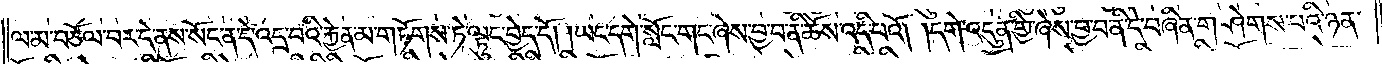ལ་མ་བཅོལ་བར་དེ་ནས་སོང་ན་དེ་འདྲ་བའི་རྐྱེན་མ་གཏོགས་ཏེ་ལྟུང་བྱེད་དོ། །ཡང་དགེ་སློང་གང་ཞེས་བྱ་བ་ནི་ཆོས་འདི་པའོ། །དགེ་འདུན་གྱི་ཞེས་བྱ་བ་ནི་དེ་བཞིན་གཤེགས་པའི་ཉན་
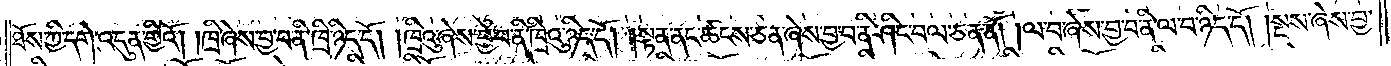ཐོས་ཀྱི་དགེ་འདུན་གྱིའོ། །ཁྲི་ཞེས་བྱ་བ་ནི་ཁྲི་ཉིད་དོ། །ཁྲིའུ་ཞེས་བྱ་བ་ནི་ཁྲིའུ་ཉིད་དོ། །སྟན་ནང་ཚངས་ཅན་ཞེས་བྱ་བ་ནི་ཤིང་བལ་ཅན་ནོ། །ལ་བ་ཞེས་བྱ་བ་ནི་ལ་བ་ཉིད་དོ། །སྔས་ཞེས་བྱ་
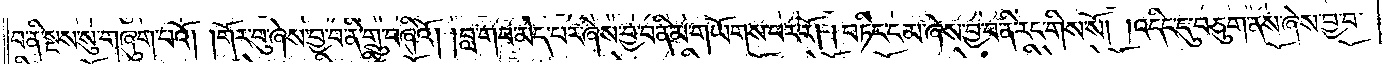བ་ནི་སྔས་སུ་གཞུག་པའོ། །གོར་བུ་ཞེས་བྱ་བ་ནི་གྲུ་བཞིའོ། །བླ་གབ་མེད་པར་ཞེས་བྱ་བ་ནི་མ་གཡོགས་པར་རོ། །བཏིང་ངམ་ཞེས་བྱ་བ་ནི་རང་གིས་སོ། །འདིང་དུ་བཅུག་ནས་ཞེས་བྱ་བ་
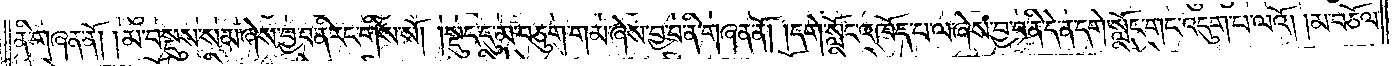ནི་གཞན་ནོ། །མ་བསྡུས་སམ་ཞེས་བྱ་བ་ནི་རང་གིས་སོ། །སྡུད་དུ་མ་བཅུག་གམ་ཞེས་བྱ་བ་ནི་གཞན་ནོ། །དགེ་སློང་འཁོད་པ་ལ་ཞེས་བྱ་བ་ནི་དེ་ན་དགེ་སློང་གང་འདུག་པ་ལའོ། །མ་བཅོལ་
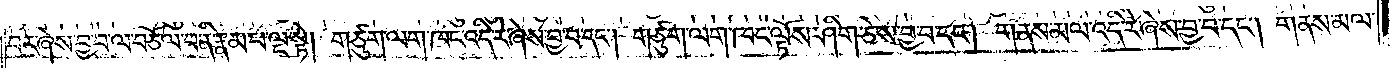བར་ཞེས་བྱ་བ་ལ་བཅོལ་བ་ནི་རྣམ་པ་ལྔ་སྟེ། གཙུག་ལག་ཁང་འདི་རེ་ཞེས་བྱ་བ་དང༌། གཙུག་ལག་ཁང་ལྟོས་ཤིག་ཅེས་བྱ་བ་དང༌། གནས་མལ་འདི་རེ་ཞེས་བྱ་བ་དང༌། གནས་མལ་
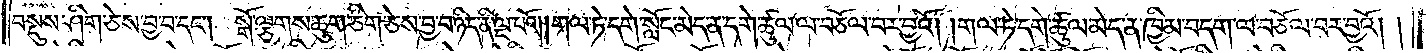བསྡུས་ཤིག་ཅེས་བྱ་བ་དང༌། སྒོ་ལྕགས་ཆུག་ཅིག་ཅེས་བྱ་བ་ཉིད་ནི་ལྔ་པའོ། །གལ་ཏེ་དགེ་སློང་མེད་ན་དགེ་ཚུལ་ལ་བཅོལ་བར་བྱའོ། །གལ་ཏེ་དགེ་ཚུལ་མེད་ན་ཁྱིམ་བདག་ལ་བཅོལ་བར་བྱའོ། །
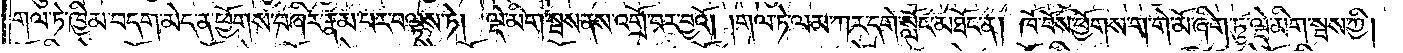གལ་ཏེ་ཁྱིམ་བདག་མེད་ན་ཕྱོགས་བཞིར་རྣམ་པར་བལྟས་ཏེ། ལྡེ་མིག་སྦས་ནས་འགྲོ་བར་བྱའོ། །གལ་ཏེ་ལམ་ཀར་དགེ་སློང་མཐོང་ན། ཁོ་བོས་ཕྱོགས་ག་གེ་མོ་ཞིག་ཏུ་ལྡེ་མིག་སྦས་ཀྱི།
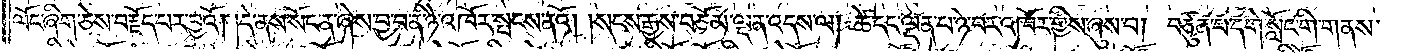ལོང་ཞིག་ཅེས་བརྗོད་པར་བྱའོ། །དེ་ནས་སོང་ན་ཞེས་བྱ་བ་ནི་ཉེ་འཁོར་སྤངས་ནའོ། །སངས་རྒྱས་བཅོམ་ལྡན་འདས་ལ། ཚེ་དང་ལྡན་པ་ཉེ་བར་འཁོར་གྱིས་ཞུས་པ། བཙུན་པ་དགེ་སློང་གི་གནས་
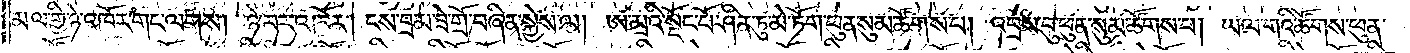མལ་གྱི་ཉེ་འཁོར་གང་ལགས། ཉེ་བར་འཁོར། ངས་བྲམ་ཟེ་གྲོ་བཞིན་སྐྱེས་ལ། ཨ་མྲའི་སྡོང་པོ་ཤིན་ཏུ་མེ་ཏོག་ཕུན་སུམ་ཚོགས་པ། འབྲས་བུ་ཕུན་སུམ་ཚོགས་པ། ཡལ་གའི་ཚོགས་ཕུན་
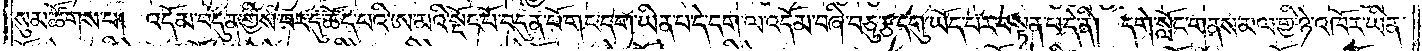སུམ་ཚོགས་པ། འདོམ་བདུན་གྱིས་བར་དུ་ཆོད་པའི་ཨ་མའི་སྡོང་པོ་གང་དག་ཡིན་པ་དེ་དག་ལ་འདོམ་བཞི་བཅུ་རྩ་དགུ་ཡོད་པར་བསྟན་པ་དེ་ནི། དགེ་སློང་གནས་མལ་གྱི་ཉེ་འཁོར་ཡིན་
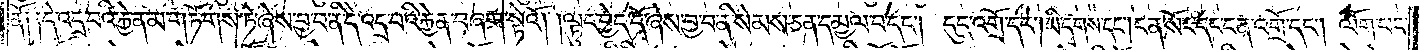ནོ༑ ༑དེ་འདྲ་བའི་རྐྱེན་མ་གཏོགས་ཏེ་ཞེས་བྱ་བ་ནི་དེ་འདྲ་བའི་རྐྱེན་བཞག་སྟེའོ། །ལྟུང་བྱེད་དོ་ཞེས་བྱ་བ་ནི་སེམས་ཅན་དམྱལ་བ་དང༌། དུད་འགྲོ་དང༌། ཡི་དྭགས་དང༌། ངན་སོང་དང་ངན་འགྲོ་དང༌། ལོག་པར་
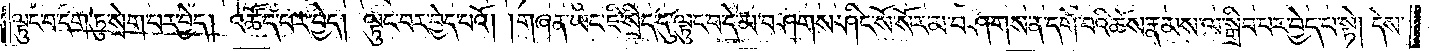ལྟུང་བ་དག་ཏུ་སྲེག་པར་བྱེད། འཚོད་པར་བྱེད། ལྟུང་བར་བྱེད་པའོ། །གཞན་ཡང་ཇི་སྲིད་དུ་ལྟུང་བ་དེ་མ་བཤགས་ཤིང་སོ་སོར་མ་བཤགས་ན་དགེ་བའི་ཆོས་རྣམས་ལ་སྒྲིབ་པ་སྟེ། དེས་
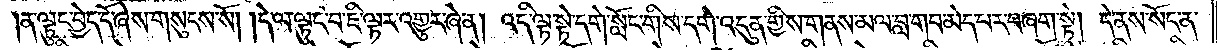།ན་ལྟུང་བྱེད་དོ་ཞེས་གསུངས་སོ། །དེ་ལ་ལྟུང་བ་ཇི་ལྟར་འགྱུར་ཞེ་ན། འདི་ལྟ་སྟེ་དགེ་སློང་གིས་དགེ་འདུན་གྱིས་གནས་མལ་བླ་གབ་མེད་པར་བཞག་སྟེ། དེ་ནས་སོང་ན་
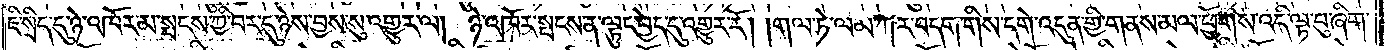ཇི་སྲིད་དུ་ཉེ་འཁོར་མ་སྤངས་ཀྱི་བར་དུ་ཉེས་བྱས་སུ་འགྱུར་ལ། ཉེ་འཁོར་སྤངས་ན་ལྟུང་བྱེད་དུ་འགྱུར་རོ། །གལ་ཏེ་ལམ་ཀར་བདག་གིས་དགེ་འདུན་གྱི་གནས་མལ་ཕྱོགས་འདི་ལྟ་བུ་ཞིག་
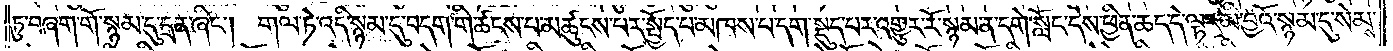ཏུ་བཞག་གོ་སྙམ་དུ་དྲན་ཞིང༌། གལ་ཏེ་འདི་སྙམ་དུ་བདག་གི་ཚངས་པ་མཚུངས་པར་སྤྱོད་པ་མཁས་པ་དག་སྡུད་པར་འགྱུར་རོ་སྙམ་ན་དགེ་སློང་དེས་ཕྱིན་ཆད་དེ་ལྟར་མི་བྱའོ་སྙམ་དུ་སེམས་
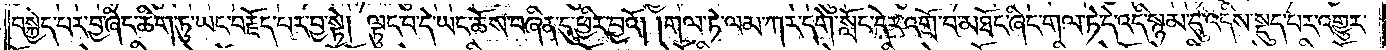བསྐྱེད་པར་བྱ་ཞིང་ཚིག་ཏུ་ཡང་བརྗོད་པར་བྱ་སྟེ། ལྟུང་བ་དེ་ཡང་ཆོས་བཞིན་དུ་ཕྱིར་བྱའོ། །གལ་ཏེ་ལམ་ཀར་དགེ་སློང་དེར་འགྲོ་བ་མཐོང་ཞིང་གལ་ཏེ་དེ་འདི་སྙམ་དུ་འདིས་སྡུད་པར་འགྱུར་
